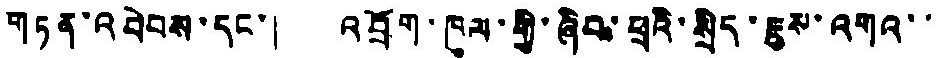གཏན་འབེབས་དང་། འབྲོག་ཁུལ་གྱི་ཞིབ་ཕྲའི་སྲིད་ཇུས་འགའ་་
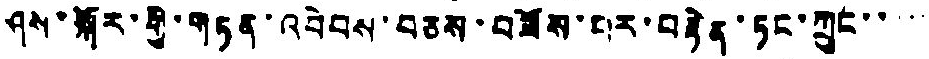ཤས་སྐོར་གྱི་གཏན་འབེབས་བཅས་བཟོས་པར་བརྟེན་ཏང་ཀྲུང་་་་་
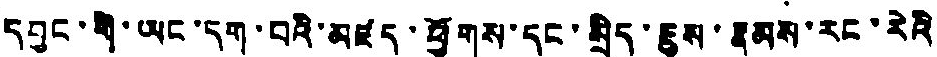དབྱང་གི་ཡང་དག་པའི་མཛད་ཕྱོགས་དང་སྲིད་ཇུས་རྣམས་རང་རེའི
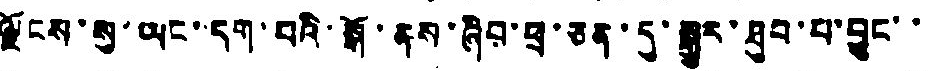ལྗོངས་སུ་ཡང་དག་པའི་སྒོ་ནས་ཞིབ་ཕྲ་ཅན་དུ་སྒྱུར་ཐུབ་པ་བྱུང་་
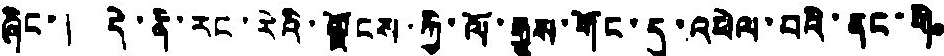ཞིང་། དེ་ནི་རང་རེའི་ལྗོངས་ཀྱི་ལོ་རྒྱུས་གོང་དུ་འཕེལ་བའི་ནང་གི
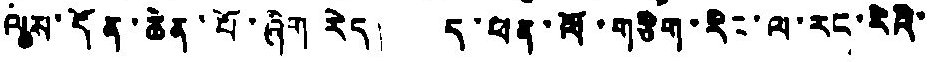ལས་དོན་ཆེན་པོ་ཞིག རེད། ད་ཕན་ལོ་གཅིག་རིང་ལ་རང་རིའི་
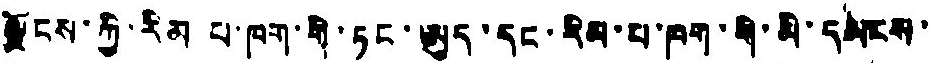ལྗོངས་ཀྱི་རིམ པ་ཁག་གི་ཏང་ཨུད་དང་རིམ་པ་ཁག་གི་མི་དམངས་
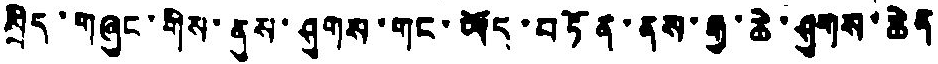སྲིད་གཞུང་གིས་ནུས་ཤུགས་གང་ཡོད་བཏོན་ནས་རྒྱ་ཆེ་ཤུགས་ཆེན
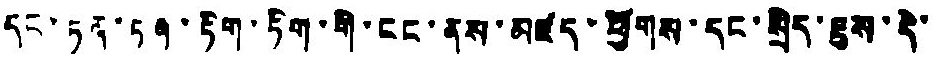དང་ཏར་ཏན་ཏིག་ཏིག་གི་ངང་ནས་མཛད་ཕྱོགས་དང་སྲིད་ཇུས་དེ་
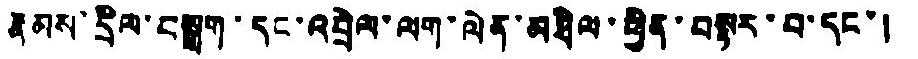རྣམས་དྲིལ་བསྒྲག་དང་འབྲེལ་ལག་ལེན་མཐིལ་ཕྱིན་བསྟར་བ་དང་།
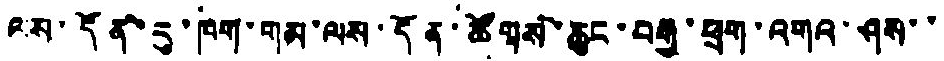ལས་དོན་རུ་ཁག་གམ་ལས་དོན་ཚོགས་ཆུང་བརྒྱ་ཕྲག་འགའ་ཤས་་
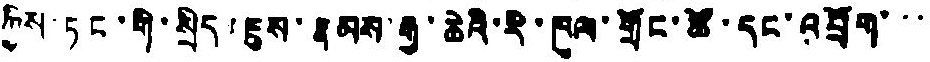ཀྱིས་ཏང་གི་སྲིད་ཇུས་རྣམས་རྒྱ་ཆེའི་རི་ཁུལ་གྲོང་ཚོ་དང་འབྲོག་་་
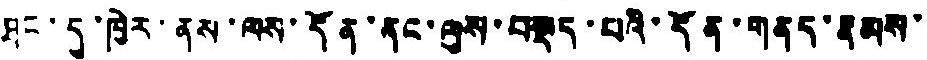ཐང་དུ་ཁྱེར་ནས་ལས་དོན་ནང་ལུས་བསྡད་པའི་དོན་གནད་རྣམས་
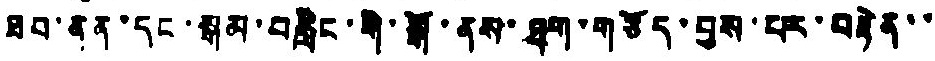ཟབ་ནན་དང་སྒམ་བརླིང་གི་སྒོ་ནས་ཐག་གཅོད་བྱས་པར་བརྟེན་་
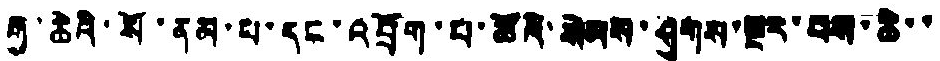རྒྱ་ཆེའི་སོ་ནམ་པ་དང་འབྲོག་པ་ཚོའི་སེམས་ཤུགས་སྔར་བས་ཆེ་་
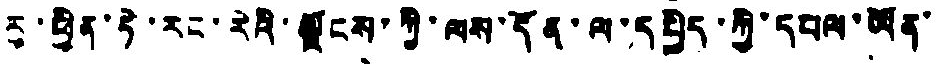རུ་ཕྱིན་ཏེ་རང་རེའི་ལྗོངས་ཀྱི་ལས་དོན་ལ་དཔྱིད་ཀྱི་དཔལ་ཡོན་
